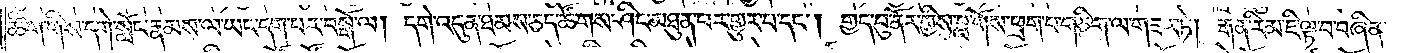ཚིག་གིས་དགེ་སློང་རྣམས་ལ་ཡང་དག་པར་བསྒོ་ལ། དགེ་འདུན་ཐམས་ཅད་ཚོགས་ཤིང་མཐུན་པར་གྱུར་པ་དང༌། གྱད་བུ་ནོར་གྱིས་བླ་གོས་ཕྲག་པ་གཅིག་ལ་གཟར་ཏེ། རྒན་རིམ་ཇི་ལྟ་བ་བཞིན་
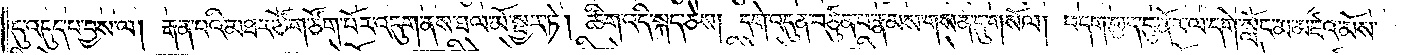དུ་འདུད་པ་བྱས་ལ། རྒན་པའི་མཐར་ཙོག་ཙོག་པོར་འདུག་ནས་ཐལ་མོ་སྦྱར་ཏེ། ཚིག་འདི་སྐད་ཅེས། དགེ་འདུན་བཙུན་པ་རྣམས་གསན་དུ་གསོལ། བདག་གྱད་བུ་ནོར་ལ་དགེ་སློང་མ་མཛའ་མོས་
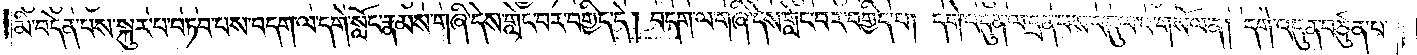མི་བདེན་པས་སྐུར་པ་བཏབ་པས་བདག་ལ་དགེ་སློང་རྣམས་གཞི་དེས་གླེང་བར་བགྱིད་དེ། བདག་ལ་གཞི་དེས་གླེང་བར་བགྱིད་པ། དགེ་འདུན་ལ་དྲན་པས་འདུལ་བ་གསོལ་ན། དགེ་འདུན་བཙུན་པ་
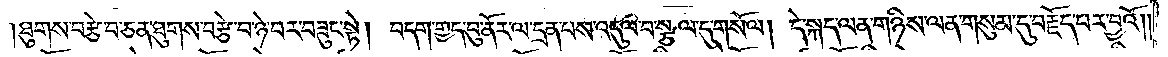།ཐུགས་བརྩེ་བ་ཅན་ཐུགས་བརྩེ་བ་ཉེ་བར་བཟུང་སྟེ། བདག་གྱད་བུ་ནོར་ལ་དྲན་པས་འདུལ་བ་སྩལ་དུ་གསོལ། དེ་སྐད་ལན་གཉིས་ལན་གསུམ་དུ་བརྗོད་པར་བྱའོ༎
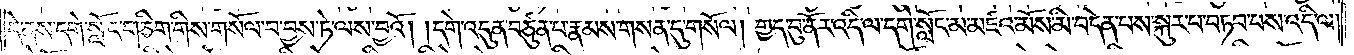དེ་ནས་དགེ་སློང་གཅིག་གིས་གསོལ་བ་བྱས་ཏེ་ལས་བྱའོ། །དགེ་འདུན་བཙུན་པ་རྣམས་གསན་དུ་གསོལ། གྱད་བུ་ནོར་འདི་ལ་དགེ་སློང་མ་མཛའ་མོས་མི་བདེན་པས་སྐུར་པ་བཏབ་པས་འདི་ལ།
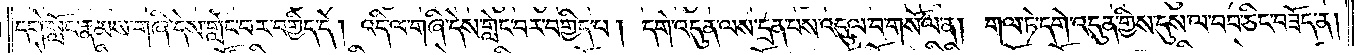དགེ་སློང་རྣམས་གཞི་དེས་གླེང་བར་བགྱིད་དེ། འདི་ལ་གཞི་དེས་གླེང་བར་བགྱིད་པ། དགེ་འདུན་ལས་དྲན་པས་འདུལ་བ་གསོལ་ན། གལ་ཏེ་དགེ་འདུན་གྱིས་དུས་ལ་བབ་ཅིང་བཟོད་ན།
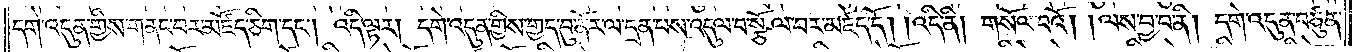དགེ་འདུན་གྱིས་གནང་བར་མཛོད་ཅིག་དང༌། འདི་ལྟར། དགེ་འདུན་གྱིས་གྱད་བུ་ནོར་ལ་དྲན་པས་འདུལ་བ་སྩོལ་བར་མཛད་དོ། །འདི་ནི། གསོལ་བའོ། །ལས་བྱ་བ་ནི། དགེ་འདུན་བཙུན་
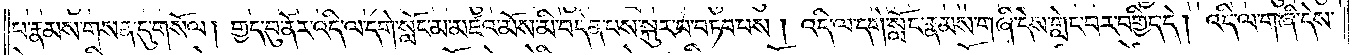པ་རྣམས་གསན་དུ་གསོལ། གྱད་བུ་ནོར་འདི་ལ་དགེ་སློང་མ་མཛའ་མོས་མི་བདེན་པས་སྐུར་པ་བཏབ་པས། འདི་ལ་དགེ་སློང་རྣམས་གཞི་དེས་གླེང་བར་བགྱིད་དེ། འདི་ལ་གཞི་དེས་
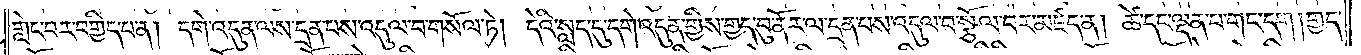གླེང་བར་བགྱིད་པ་ན། དགེ་འདུན་ལས་དྲན་པས་འདུལ་བ་གསོལ་ཏེ། དེའི་སླད་དུ་དགེ་འདུན་གྱིས་གྱད་བུ་ནོར་ལ་དྲན་པས་འདུལ་བ་སྩོལ་བར་མཛད་ན། ཚེ་དང་ལྡན་པ་གང་དག །གྱད་
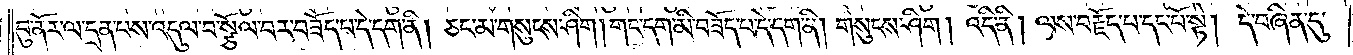བུ་ནོར་ལ་དྲན་པས་འདུལ་བ་སྩོལ་བར་བཟོད་པ་དེ་དག་ནི། ཅང་མ་གསུངས་ཤིག །གང་དག་མི་བཟོད་པ་དེ་དག་ནི། གསུངས་ཤིག །འདི་ནི། ལས་བརྗོད་པ་དང་པོ་སྟེ། དེ་བཞིན་དུ་
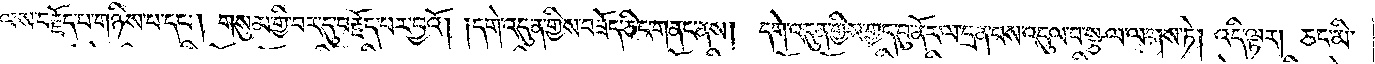ལས་བརྗོད་པ་གཉིས་པ་དང༌། གསུམ་གྱི་བར་དུ་བརྗོད་པར་བྱའོ། །དགེ་འདུན་གྱིས་བཟོད་ཅིང་གནང་ནས། དགེ་འདུན་གྱིས་གྱད་བུ་ནོར་ལ་དྲན་པས་འདུལ་བ་སྩལ་ལགས་ཏེ། འདི་ལྟར། ཅང་མི་
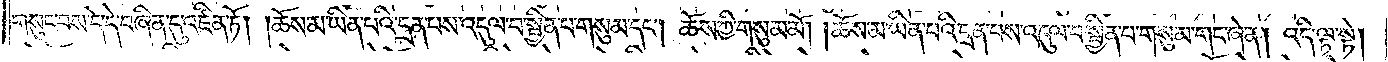གསུང་བས་དེ་དེ་བཞིན་དུ་འཛིན་ཏོ། །ཆོས་མ་ཡིན་པའི་དྲན་པས་འདུལ་བ་སྦྱིན་པ་གསུམ་དང༌། ཆོས་ཀྱི་གསུམ་མོ། །ཆོས་མ་ཡིན་པའི་དྲན་པས་འདུལ་བ་སྦྱིན་པ་གསུམ་གང་ཞེ་ན། འདི་ལྟ་སྟེ།
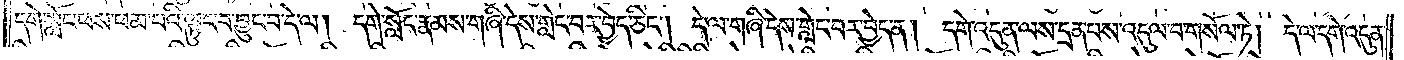དགེ་སློང་ཕས་ཕམ་པའི་ལྟུང་བ་བྱུང་བ་དེ་ལ། དགེ་སློང་རྣམས་གཞི་དེས་གླེང་བར་བྱེད་ཅིང༌། དེ་ལ་གཞི་དེས་གླེང་བར་བྱེད་ན། དགེ་འདུན་ལས་དྲན་པས་འདུལ་བ་གསོལ་ཏེ། དེ་ལ་དགེ་འདུན་
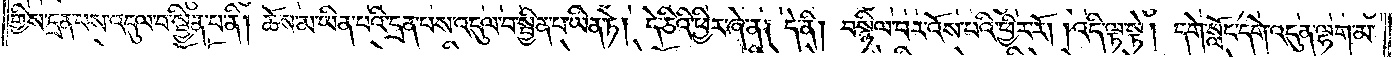གྱིས་དྲན་པས་འདུལ་བ་སྦྱིན་པ་ནི། ཆོས་མ་ཡིན་པའི་དྲན་པས་འདུལ་བ་སྦྱིན་པ་ཡིན་ཏེ། དེ་ཅིའི་ཕྱིར་ཞེ་ན། དེ་ནི། བསྙིལ་བར་འོས་པའི་ཕྱིར་རོ། །འདི་ལྟ་སྟེ། དགེ་སློང་དགེ་འདུན་ལྷག་མ་
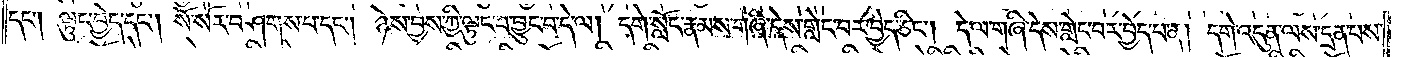དང༌། ལྟུང་བྱེད་དང༌། སོ་སོར་བཤགས་པ་དང༌། ཉེས་བྱེས་ཀྱི་ལྟུང་བ་བྱུང་བ་དེ་ལ། དགེ་སློང་རྣམས་གཞི་དེས་གླེང་བར་བྱེད་ཅིང༌། དེ་ལ་གཞི་དེས་གླེང་བར་བྱེད་པ་ན། དགེ་འདུན་ལས་དྲན་པས་
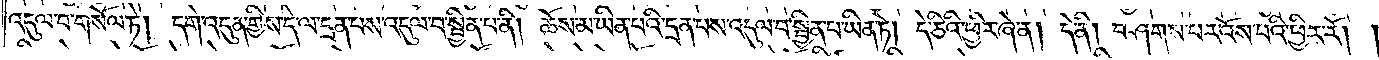འདུལ་བ་གསོལ་ཏེ། དགེ་འདུན་གྱིས་དེ་ལ་དྲན་པས་འདུལ་བ་སྦྱིན་པ་ནི། ཆོས་མ་ཡིན་པའི་དྲན་པས་འདུལ་བ་སྦྱིན་པ་ཡིན་ཏེ། དེ་ཅིའི་ཕྱིར་ཞེ་ན། དེ་ནི། བཤགས་པར་འོས་པའི་ཕྱིར་རོ། །
